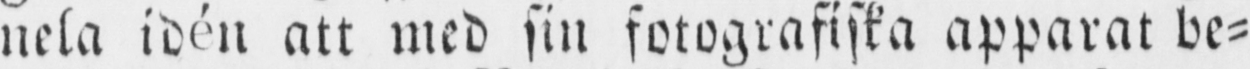nela idén att med sin fotografiska apparat be-
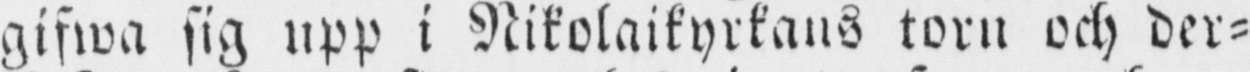gifwa sig upp i Nikolaikyrkans torn och der-
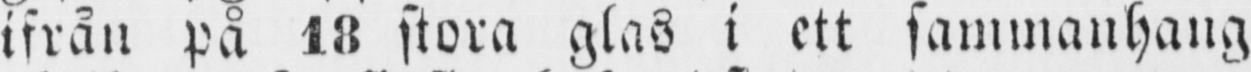ifrån på 18 stora glas i ett sammanhang
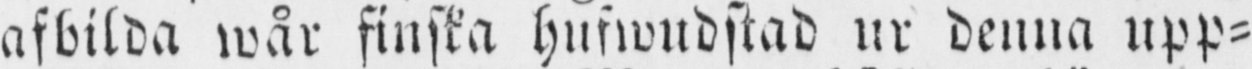afbilda wår finska hufwudstad ur denna upp-
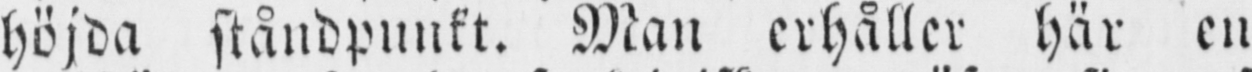höjda ståndpunkt. Man erhåller här en
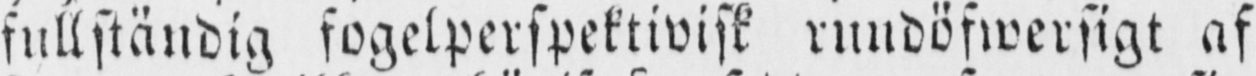fullständig fogelperspektivisk rundöfwersigt af
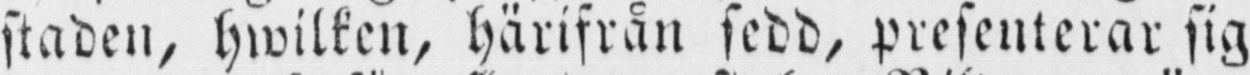staden, hwilken, härifrån sedd, presenterar sig
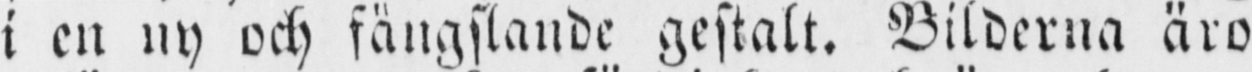i en ny och fängslande gestalt. Bilderna äro
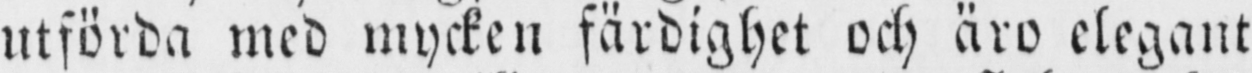utförda med mycken färdighet och äro elegant
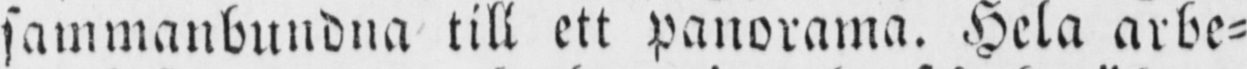sammanbundna till ett panorama. Hela arbe-
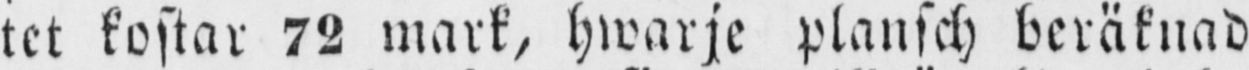tet kostar 72 mark, hwarje plansch beräknad
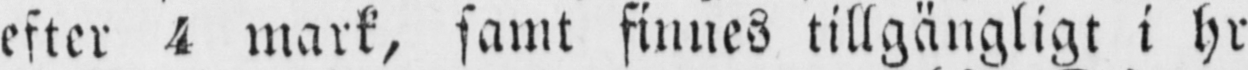efter 4 mark, samt finnes tillgängligt i hr
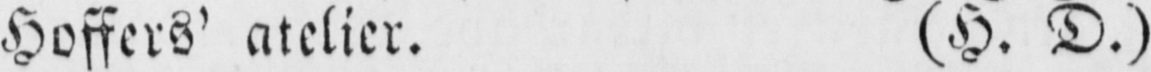Hoffers' atelier. (H. D.)
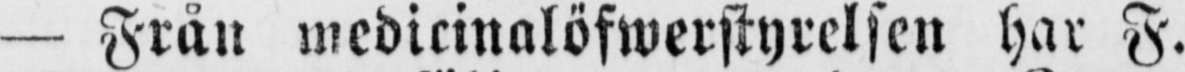— Från medicinalöfwerstyrelsen har F.
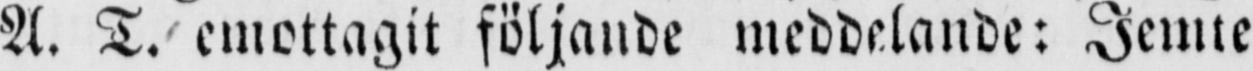A. T. emottagit följande meddelande: Jemte
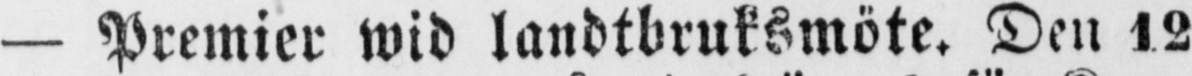— Premier wid landtbruksmöte. Den 12
